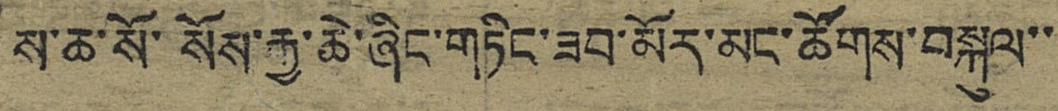ས་ཆ་སོ་སོས་རྒྱ་ཆེ་ཞིང་གཏིང་ཟབ་མོར་མང་ཚོགས་བསྐུལ་་
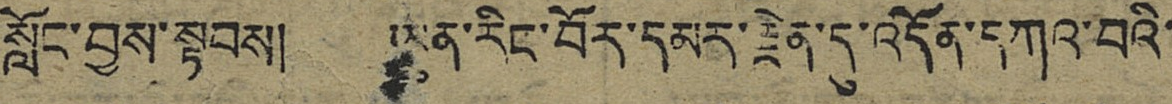སློང་བྱས་སྟབས། ཡུན་རིང་བོར་དམར་རྗེན་དུ་འདོན་དཀའ་བའི་
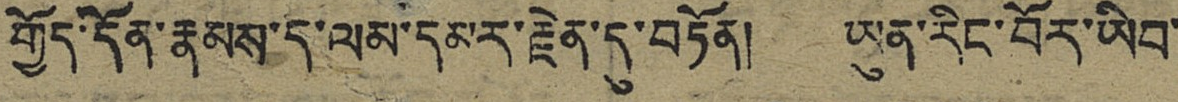གྱོད་དོན་རྣམས་ད་ལམ་དམར་རྗེན་དུ་བཏོན། ཡུན་རིང་བོར་ཡིབ་
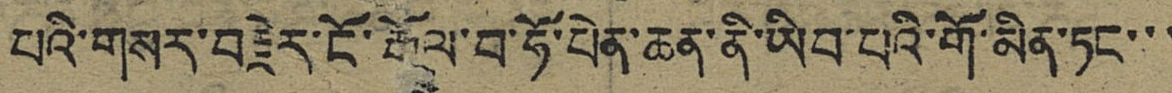པའི་གསར་བརྗེར་ངོ་རྒོལ་བ་ཧོ་པེན་ཆན་ནི་ཡིབ་པའི་གོ་མིན་ཏང་་་
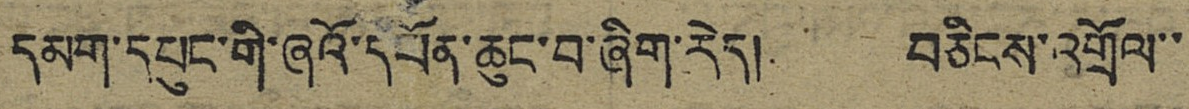དམག་དཔུང་གི་ཞའོ་དཔོན་ཆུང་བ་ཞིག་རེད། བཅིངས་འགྲོལ་་
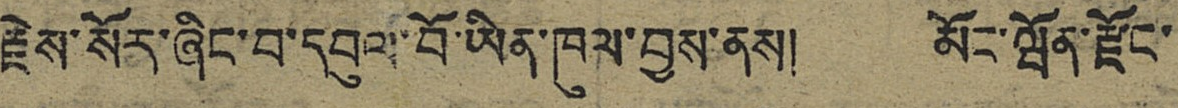རྗེས་སོར་ཞིང་བ་དབུལ་བོ་ཡིན་ཁུལ་བྱས་ནས། མོང་ཝོན་རྫོང་
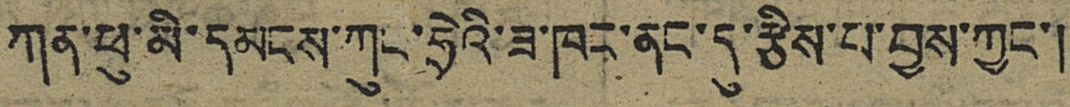ཀན་ཕུ་མི་དམངས་ཀུང་ཧྲེའི་ཟ་ཁང་ནང་དུ་རྩིས་པ་བྱས་ཀྱང་།
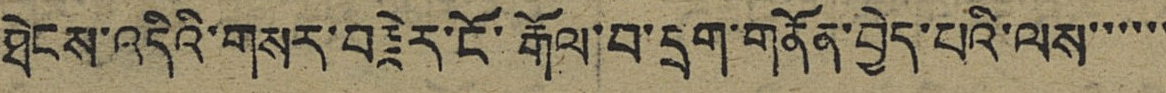ཐེངས་འདིའི་གསར་བརྗེར་ངོ་རྒོལ་བ་དྲག་གནོན་བྱེད་པའི་ལས་་་་་་
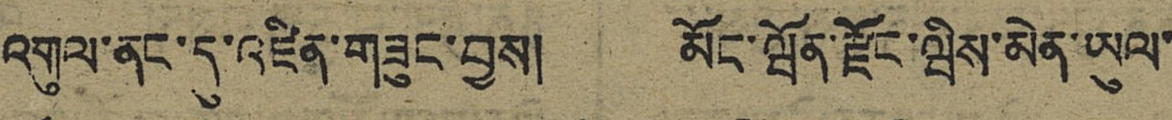འགུལ་ནང་དུ་འཛིན་གཟུང་བྱས། མོང་ཝོན་རྫོང་ཝིས་མེན་ཡུལ་
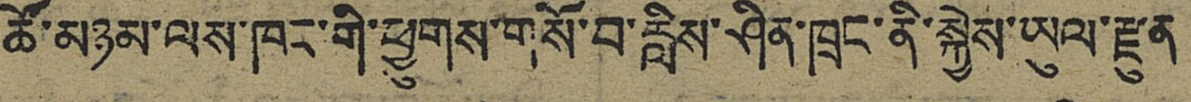ཚོ་མཉམ་ལས་ཁང་གི་ཕྱུགས་གསོ་བ་རླིས་ཤིན་ཁྲང་ནི་སྐྱེས་ཡུལ་རྫུན
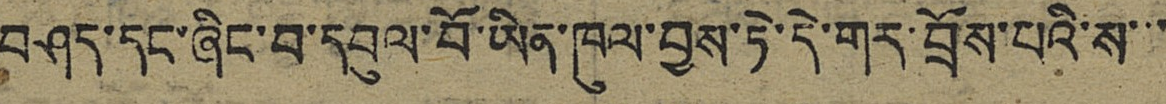བཤད་དང་ཞིང་བ་དབུལ་བོ་ཡིན་ཁུལ་བྱས་ཏེ་དེ་གར་བྲོས་པའི་ས་་་
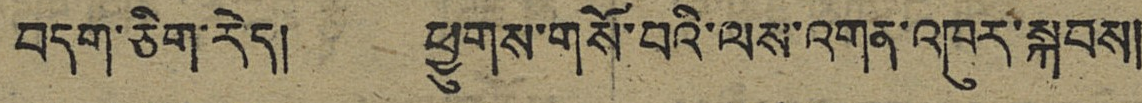བདག་ཅིག་རེད། ཕྱུགས་གསོ་བའི་ལས་འགན་འཁུར་སྐབས།
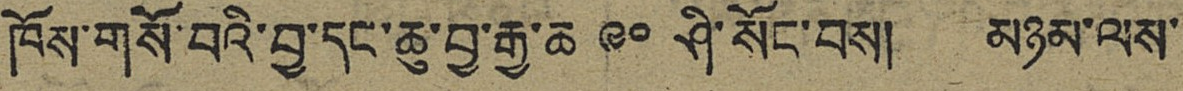ཁོས་གསོ་བའི་བྱ་དང་ཆུ་བྱ་རྒྱ་ཆ ༩༠ ཤི་སོང་བས། མཉམ་ལས་
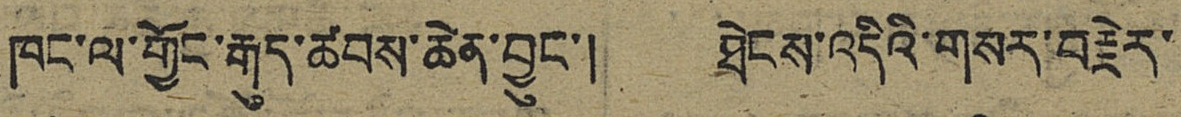ཁང་ལ་གྱོང་རྒུད་ཚབས་ཆེན་བྱུང་། ཐེངས་འདིའི་གསར་བརྗེར་
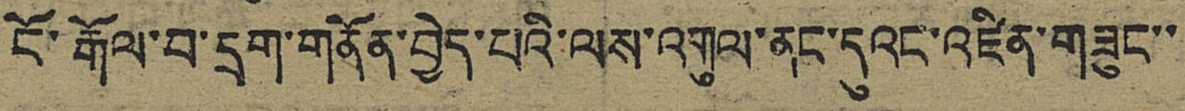ངོ་རྒོལ་བ་དྲག་གནོན་བྱེད་པའི་ལས་འགུལ་ནང་དུའང་འཛིན་གཟུང་་
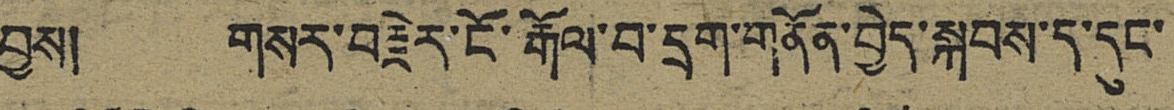བྱས། གསར་བརྗེར་ངོ་རྒོལ་བ་དྲག་གནོན་བྱེད་སྐབས་ད་དུང་
